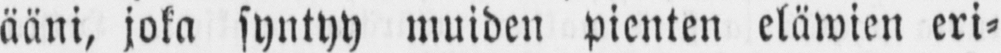ääni, joka syntyy muiden pienten eläwien eri-
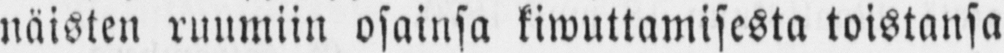näisten ruumiin osainsa kiwuttamisesta toistansa
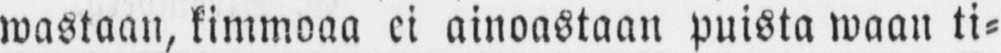wastaan, kimmoaa ei ainoastaan puista waan ti-
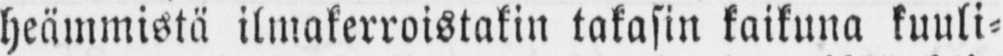heämmistä ilmakerroistakin takasin kaikuna kuuli-
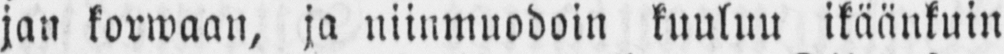jan korwaan, ja niinmuodoin kuuluu ikäänkuin
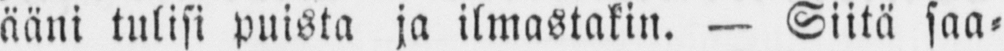ääni tulisi puista ja ilmastakin. — Siitä saa-
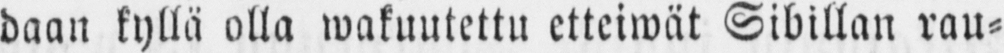daan kyllä olla wakuutettu etteiwät Sibillan rau-
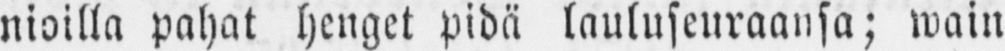nioilla pahat henget pidä lauluseuraansa; wain
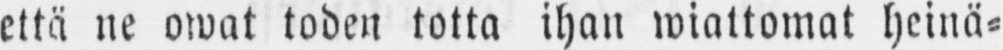että ne owat toden totta ihan wiattomat heinä-
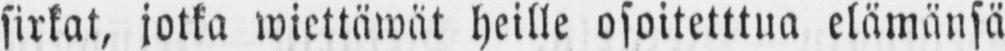sirkat, jotka wiettäwät heille osoitetttua elämänsä
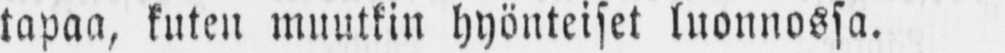tapaa, kuten muutkin hyönteiset luonnossa.
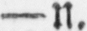—n.
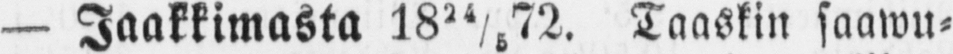— Jaakkimasta 1824/5 72. Taaskin saawu-
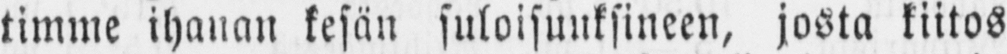timme ihanan kesän suloisuuksineen, josta kiitos
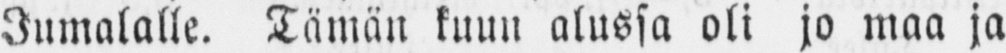Jumalalle. Tämän kuun alussa oli jo maa ja
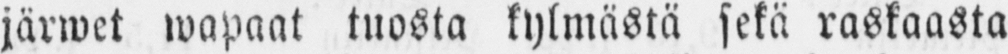järwet wapaat tuosta kylmästä sekä raskaasta
